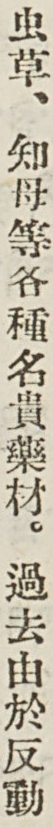蟲草、知母等各種名貴藥材。過去由於反動
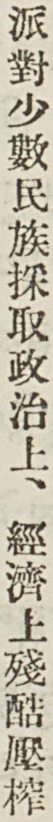派對少數民族採取政治上、經濟上殘酷壓榨
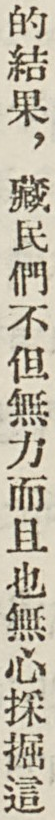的結果，藏民們不但無力而且也無心採掘這
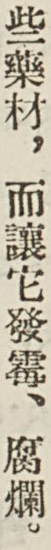些藥材，而讓它發霉、腐爛。
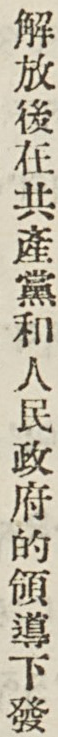解放後在共產黨和人民政府的領導下發
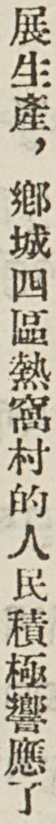展生產，鄉成四區熱窩村的人民積極響應了
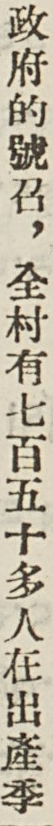政府的號召，全村有七百五十多人在出產季
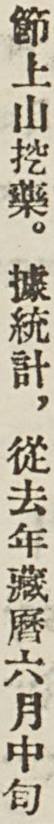節上山挖藥。據統計，從去年藏曆六月中旬
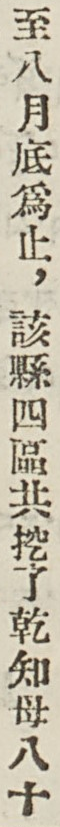至八月底爲止，該縣四區共挖了乾知母八十
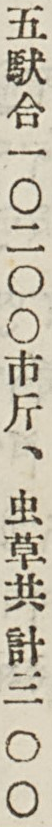五䭾合一〇二〇〇市斤、蟲草共計三 〇 〇
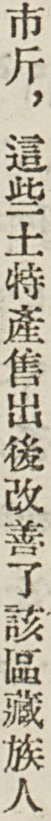市斤，這些土特產售出後改善了該區藏族人
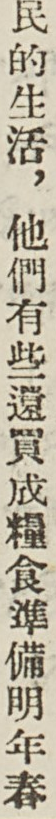民的生活，他們有些還買成糧食準備明年春
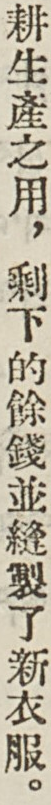耕生產之用，剩下的餘錢並縫製了新衣服。
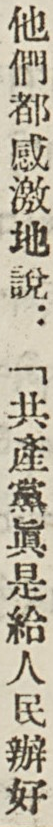他們都感激地說：「共產黨眞是給人民辦好
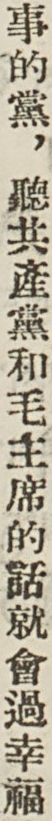事的黨，聽共產黨和毛主席的話就會過幸福
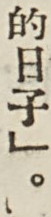的日子」。
